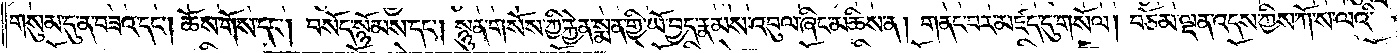གསུམ་དུ་ན་བཟའ་དང༌། ཆོས་གོས་དང༌། བསོད་སྙོམས་དང༌། སྙུན་གསོས་ཀྱི་རྐྱེན་སྨན་གྱི་ཡོ་བྱད་རྣམས་འབུལ་ཞིང་མཆིས་ན། གནང་བར་མཛད་དུ་གསོལ། བཅོམ་ལྡན་འདས་ཀྱིས་ཀོ་ས་ལའི་
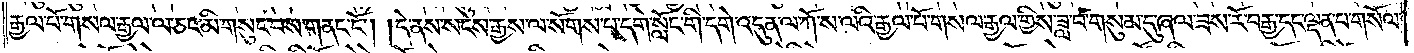རྒྱལ་པོ་གསལ་རྒྱལ་ལ་ཅང་མི་གསུང་བས་གནང་ངོ༌། །དེ་ནས་སངས་རྒྱས་ལ་སོགས་པ་དགེ་སློང་གི་དགེ་འདུན་ལ་ཀོ་ས་ལའི་རྒྱལ་པོ་གསལ་རྒྱལ་གྱིས་ཟླ་བ་གསུམ་དུ་ཞལ་ཟས་རོ་བརྒྱ་དང་ལྡན་པ་གསོལ་
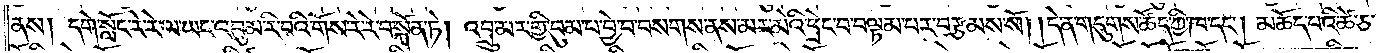ནས། དགེ་སློང་རེ་རེ་ལ་ཡང་འབུམ་རི་བའི་གོས་རེ་རེ་བསྐོན་ཏེ། འབྲུ་མར་གྱི་བུམ་པ་བྱེ་བ་བསགས་ནས་མར་མེའི་ཕྲེང་བ་བལྟམ་པར་བརྩམས་སོ། །དེ་ན་གདུགས་ཚོད་ཀྱི་ཁ་དང༌། མཆོད་པའི་ཚེ་ཅ་
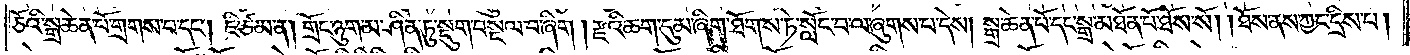ཅོའི་སྒྲ་ཆེན་པོ་གྲགས་པ་དང༌། ཇི་ཙམ་ན། གྲོང་ཉུག་མ་ཤིན་ཏུ་སྡུག་བསྔལ་བ་ཞིག །རྫའི་ཆག་དུམ་ཞིག་ཐོགས་ཏེ་སློང་བ་ལ་ཞུགས་པ་དེས། སྒྲ་ཆེན་པོ་དང་སྒྲ་མཐོན་པོ་ཐོས་སོ། །ཐོས་ནས་ཀྱང་དྲིས་པ།
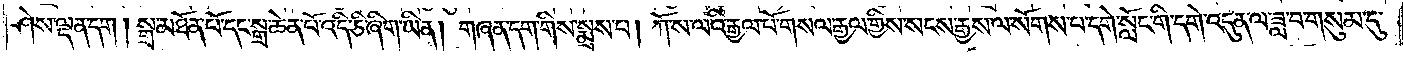ཤེས་ལྡན་དག། སྒྲ་མཐོན་པོ་དང་སྒྲ་ཆེན་པོ་འདི་ཅི་ཞིག་ཡིན། གཞན་དག་གིས་སྨྲས་པ། ཀོ་ས་ལའི་རྒྱལ་པོ་གསལ་རྒྱལ་གྱིས་སངས་རྒྱས་ལ་སོགས་པ་དགེ་སློང་གི་དགེ་འདུན་ལ་ཟླ་བ་གསུམ་དུ་
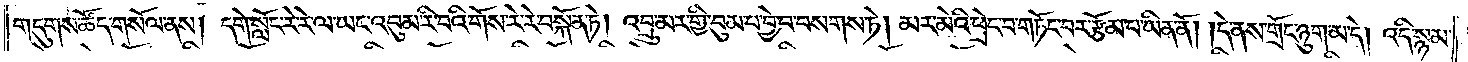གདུགས་ཚོད་གསོལ་ནས། དགེ་སློང་རེ་རེ་ལ་ཡང་འབུམ་རི་བའི་གོས་རེ་རེ་བསྐོན་ཏེ། འབྲུ་མར་གྱི་བུམ་པ་བྱེ་བ་བསགས་ཏེ། མར་མེའི་ཕྲེང་བ་གཏོང་བར་རྩོམ་པ་ཡིན་ནོ། །དེ་ནས་གྲོང་ཉུག་མ་དེ། འདི་སྙམ་
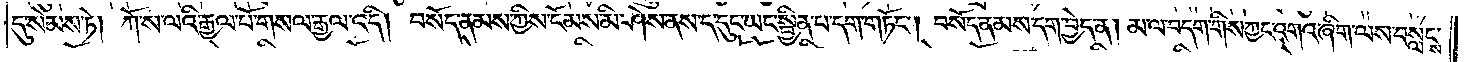དུ་སེམས་ཏེ། ཀོ་ས་ལའི་རྒྱལ་པོ་གསལ་རྒྱལ་འདི། བསོད་ནམས་ཀྱིས་ངོམས་མི་ཤེས་ནས་ད་དུང་ཡང་སྦྱིན་པ་དག་གཏོང༌། བསོད་ནམས་དག་བྱེད་ན། མ་ལ་བདག་གིས་ཀྱང་འགའ་ཞིག་ལས་བསླངས་
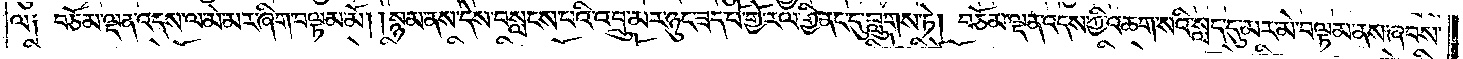ལ༑ བཅོམ་ལྡན་འདས་ལ་མེར་མེར་ཞིག་བལྟམ་མོ། །སྙམ་ནས་དེས་བསླངས་པའི་འབྲུ་མར་ཉུང་ཟད་པོ་གྱོ་རལ་གྱི་ནང་དུ་བླུགས་ཏེ། བཅོམ་ལྡན་འདས་ཀྱི་འཆག་སའི་སླད་དུ་མར་མེ་བལྟམ་ནས་ཞབས་
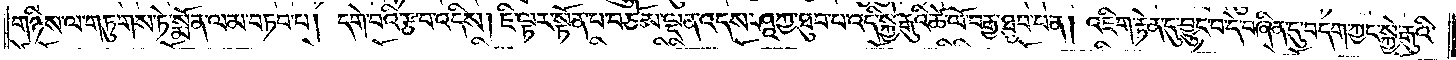གཉིས་ལ་གཏུགས་ཏེ་སྨོན་ལམ་བཏབ་པ། དགེ་བའི་རྩ་བ་འདིས། ཇི་ལྟར་སྟོན་པ་བཅོམ་ལྡན་འདས་ཤཱཀྱ་ཐུབ་པ་འདི་སྐྱེ་རྒུའི་ཚེ་ལོ་བརྒྱ་ཐུབ་པ་ན། འཇིག་རྟེན་དུ་བྱུང་བ་དེ་བཞིན་དུ་བདག་ཀྱང་སྐྱེ་རྒུའི་
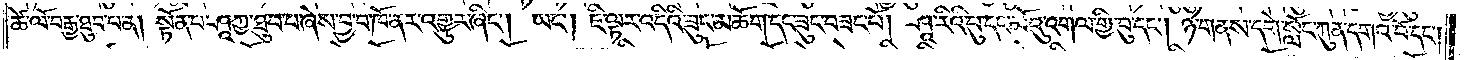ཚེ་ལོ་བརྒྱ་ཐུབ་པ་ན། སྟོན་པ་ཤཱཀྱ་ཐུབ་པ་ཞེས་བྱ་བ་ཁོ་ནར་འགྱུར་ཞིང༌། ཡང༌། ཇི་ལྟར་འདིའི་ཟུང་མཆོག་དང་ཟུང་བཟང་པོ། ཤཱ་རིའི་བུ་དང་མོའུ་འགལ་གྱི་བུ་དང༌། ཉེ་གནས་དགེ་སློང་ཀུན་དགའ་བོ་དང༌།
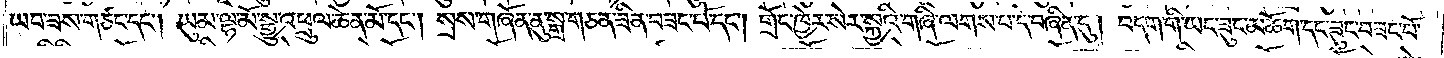ཡབ་ཟས་གཙང་དང༌། ཡུམ་ལྷ་མོ་སྒྱུ་འཕྲུལ་ཆེན་མོ་དང༌། སྲས་གཞོན་ནུ་སྒྲ་གཅན་ཟིན་བཟང་པོ་དང༌། གྲོང་ཁྱེར་སེར་སྐྱའི་གཞི་ལགས་པ་དེ་བཞིན་དུ། བདག་གི་ཡང་ཟུང་མཆོག་དང་ཟུང་བཟང་པོ་
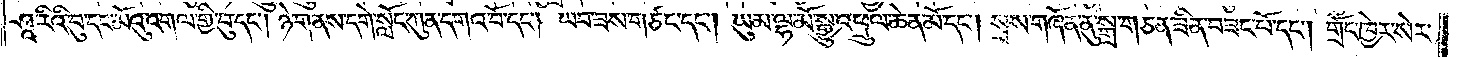ཤཱ་རིའི་བུ་དང་མོའུ་འགལ་གྱི་བུ་དང༌། ཉེ་གནས་དགེ་སློང་ཀུན་དགའ་བོ་དང༌། ཡབ་ཟས་གཙང་དང༌། ཡུམ་ལྷ་མོ་སྒྱུ་འཕྲུལ་ཆེན་མོ་དང༌། སྲས་གཞོན་ནུ་སྒྲ་གཅན་ཟིན་བཟང་པོ་དང༌། གྲོང་ཁྱེར་སེར་
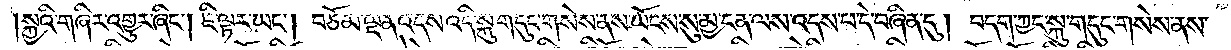སྐྱའི་གཞིར་འགྱུར་ཞིང༌། ཇི་ལྟར་ཡང༌། བཅོམ་ལྡན་འདས་འདི་སྐུ་གདུང་གསེས་ནས་ཡོངས་སུ་མྱ་ངན་ལས་འདས་པ་དེ་བཞིན་དུ། བདག་ཀྱང་སྐུ་གདུང་གསེས་ནས་
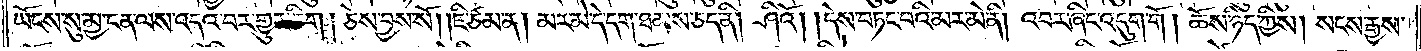ཡོངས་སུ་མྱ་ངན་ལས་འདའ་བར་གྱུར་ཅིག །ཅེས་བྱས་སོ། །ཇི་ཙམ་ན། མར་མེ་དེ་དག་ཐམས་ཅད་ནི། ཤིའོ། །དེས་བཏང་བའི་མར་མེ་ནི། འབར་ཞིང་འདུག་གོ །ཆོས་ཉིད་ཀྱིས། སངས་རྒྱས་
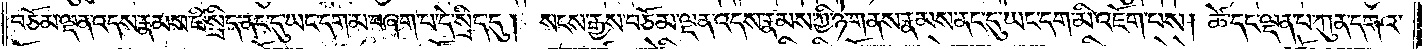བཅོམ་ལྡན་འདས་རྣམས་ཇི་སྲིད་ནང་དུ་ཡང་དག་མ་བཞག་པ་དེ་སྲིད་དུ། སངས་རྒྱས་བཅོམ་ལྡན་འདས་རྣམས་ཀྱི་ཉེ་གནས་རྣམས་ནང་དུ་ཡང་དག་མི་འཇོག་པས། ཚེ་དང་ལྡན་པ་ཀུན་དགའ་
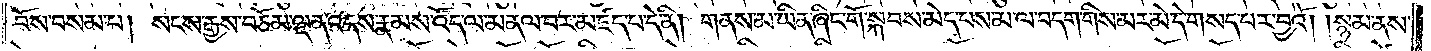བོས་བསམ་པ། སངས་རྒྱས་བཅོམ་ལྡན་འདས་རྣམས་འོད་ལ་མནལ་བར་མཛད་པ་དེ་ནི། གནས་མ་ཡིན་ཞིང་གོ་སྐབས་མེད་པས་མ་ལ་བདག་གིས་མར་མེ་དེ་གསད་པར་བྱའོ། །སྙམ་ནས་
